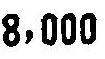8,000
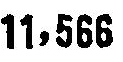11,566
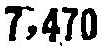7,470
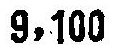9,100
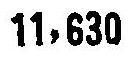11,630
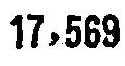17,569
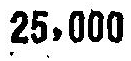25,000
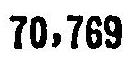70,769
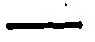—
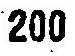200
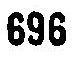696
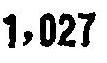1,027
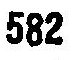582
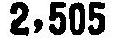2,505
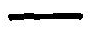—
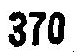370
